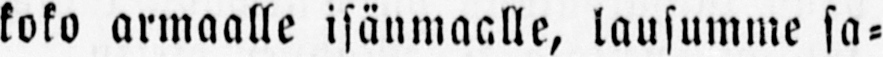koko armaalle isänmaalle, lausumme sa-
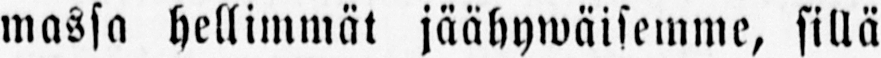wassa hellimmät jäähywäisemme, sillä
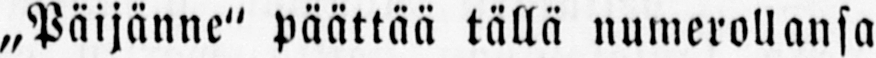„Päijänne" päättää tällä numerollansa
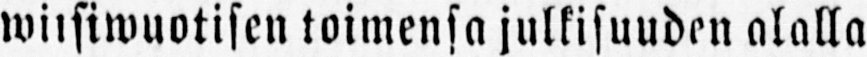wiisiwuotisen toimensa julkisuuden alalla
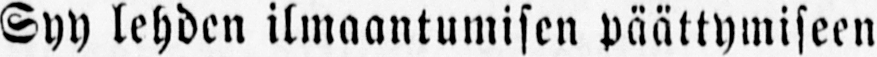Syy lehden ilmaantumisen päättymiseen
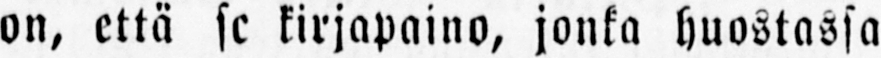on, että se kirjapaino, jonka huostassa
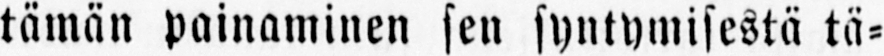tämän painaminen sen syntymisestä tä-
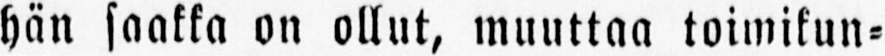hän saakka on ollut, muuttaa toimikun-
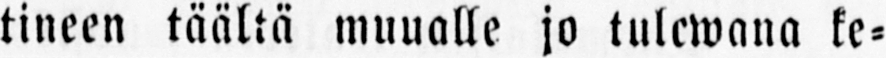tilleen täältä muualle jo tulewana ke-
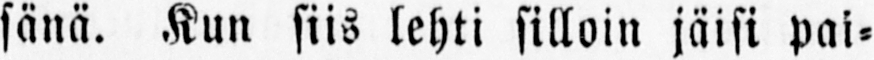sänä. Kun siis lehti silloin jäisi pai-
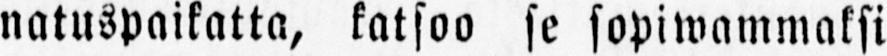natuspaikatta, katsoo se sopiwammaksi
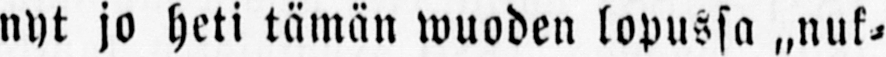nyt jo heti tämän wuoden lopussa „nuk-
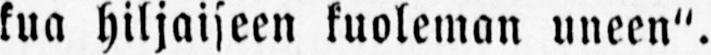kua hiljaiseen kuoleman uneen".
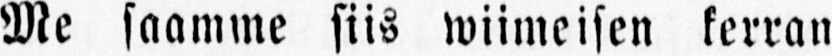Me saamme siis wiimeisen kerran
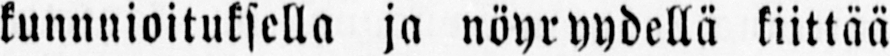kunnnioituksella ja nöyryydellä kiittää
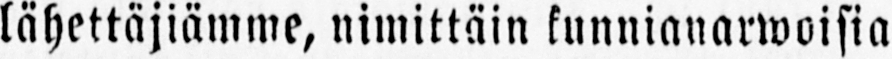lähettäjiämme, nimittäin kunnianarwoisia
